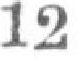12
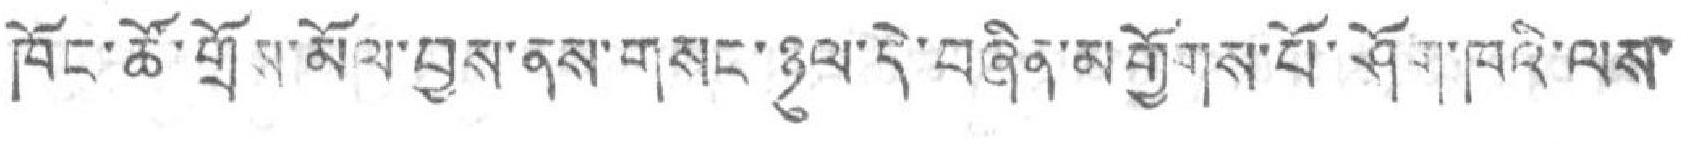ཁོང་ཚོ་གྲོས་མོལ་བྱས་ནས་གསང་ཉུལ་དེ་བཞིན་མགྱོགས་པོ་ཤོག་ཁའི་ལས་
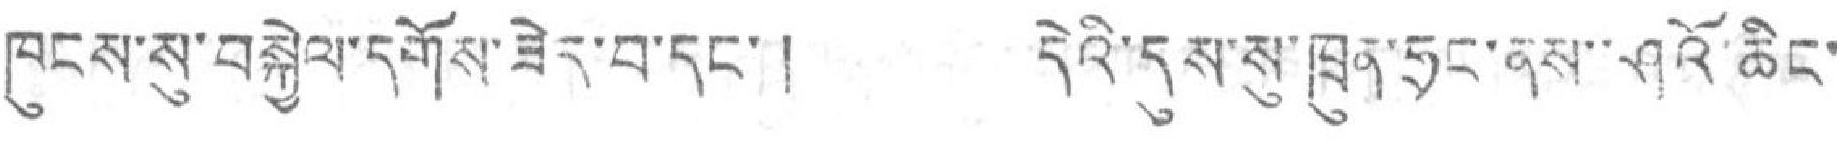ཁུངས་སུ་བསྐྱེལ་དགོས་ཟེར་བ་དང་། དེའི་དུས་སུ་ཁྲུན་ཧྲང་ནས་་ཤུའོ་ཆིང་
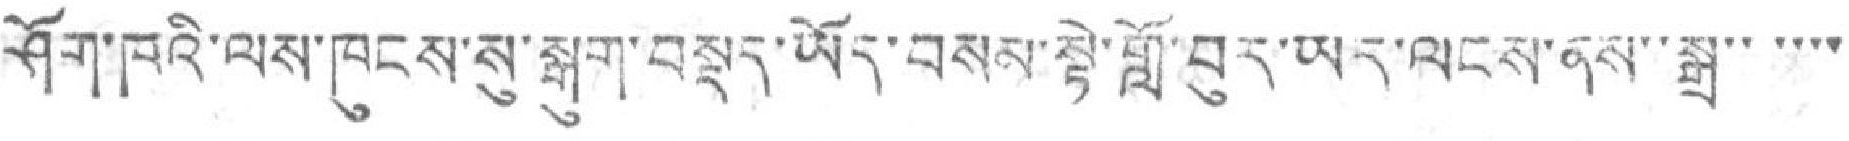ཤོག་ཁའི་ལས་ཁུངས་སུ་སྒུག་བསྡད་ཡོད་བསམ་སྟེ་གློ་བུར་ཡར་ལངས་ནས་སྒྲ་་་་་་
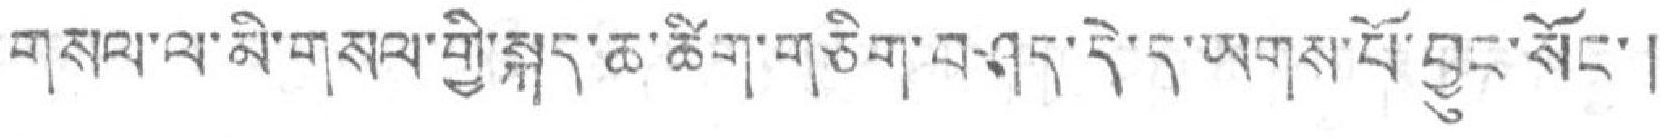གསལ་ལ་མི་གསལ་གྱི་སྐད་ཆ་ཚིག་གཅིག་བཤད་དི་ད་ཡགས་པོ་བྱུང་སོང་།
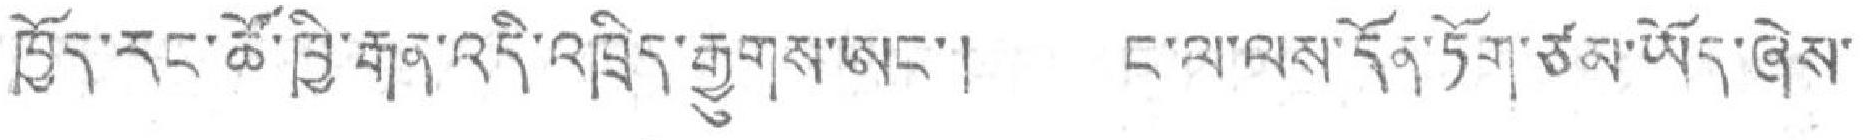ཁྱོད་རང་ཚོ་ཁྱི་རྒན་འདི་འཁྲིད་རྒྱུགས་ཨང་། ང་ལ་ལས་དོན་ཏོག་ཙམ་ཡོད་ཞེས་
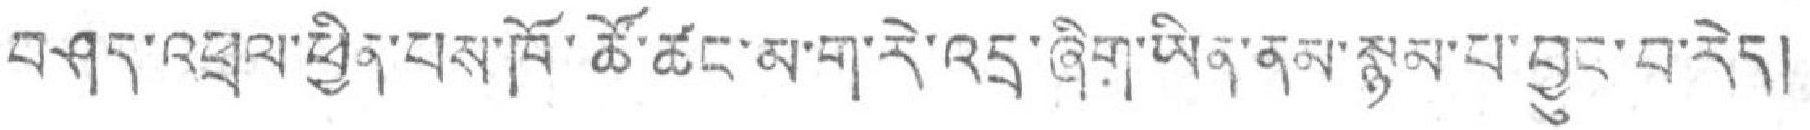བཤད་འཕྲལ་ཕྱིན་པས་ཁོ་ཚོ་ཚང་མ་ག་རེ་འདྲ་ཞིག་ཡིན་ནམ་སྙམ་པ་བྱུང་བ་རེད།
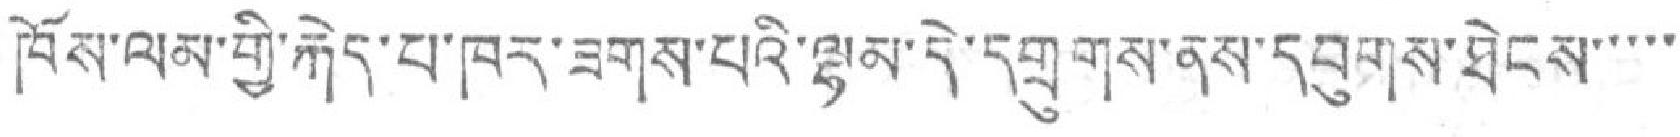ཁོས་ལམ་གྱི་རྐེད་པ་ཁར་ཟགས་པའི་ལྷམ་དེ་དགྲུགས་ནས་དབུགས་ཐེངས་་་་་
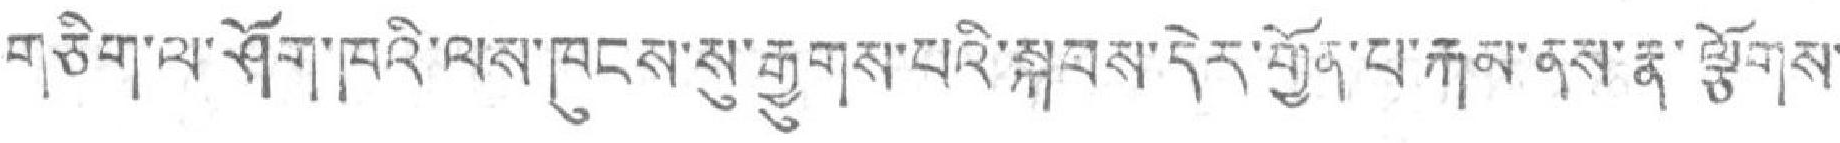གཅིག་ལ་ཤོག་ཁའི་ལས་ཁུངས་སུ་རྒྱུགས་པའི་སྐབས་དེར་གྱོན་པ་རྐམ་ནས་རྣ་ལྕོགས་
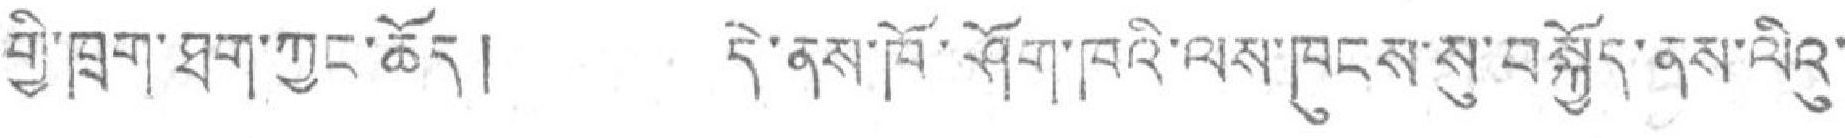གྱི་ཁྲག་ཐག་ཀྱང་ཆོད། དེ་ནས་ཁོ་ཤོག་ཁའི་ལས་ཁུངས་སུ་བསྐྱོད་ནས་ལིའུ་
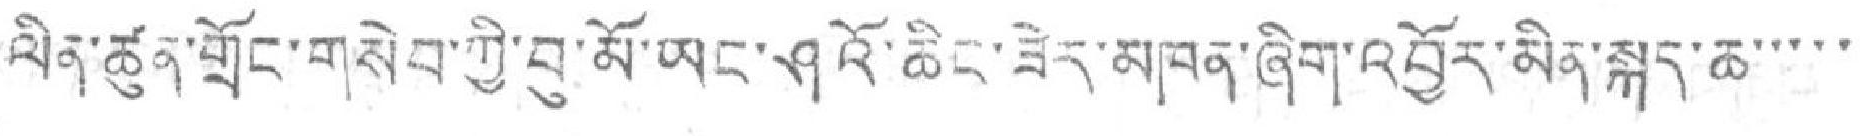ལིན་ཚུན་གྲོང་གསེབ་ཀྱི་བུ་མོ་ཡང་ཤའོ་ཆིང་ཟེར་མཁན་ཞིག་འབྱོར་མིན་སྐད་ཆ་་་་་
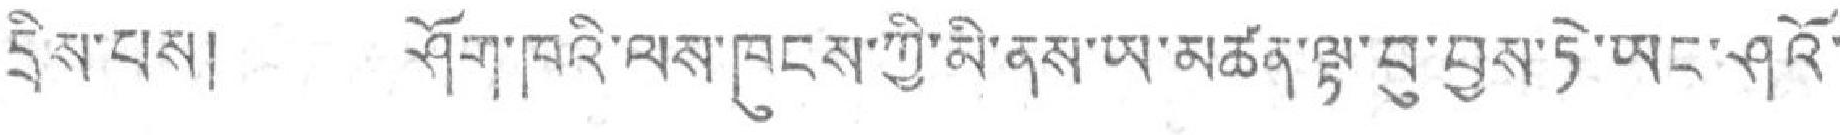དྲེས་པས། ཤོག་ཁའི་ལས་ཁུངས་ཀྱི་མི་ནས་ཡ་མཚན་ལྟ་བུ་བྱས་ཏེ་ཡང་ཤའོ་
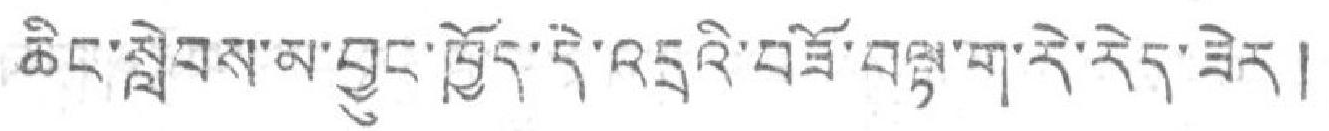ཆིང་སླེབས་མ་བྱུང་ཁྱོད་དེ་འདྲའི་བཟོ་བལྟ་ག་རེ་རེད་ཟེར།
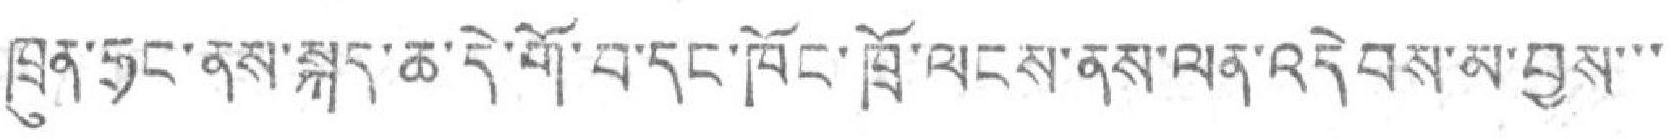ཁྲུན་ཧྲང་ནས་སྐད་ཆ་དེ་གོ་བ་དང་ཁོང་ཁྲོ་ལངས་ནས་ལན་འདེབས་མ་བྱས་་་
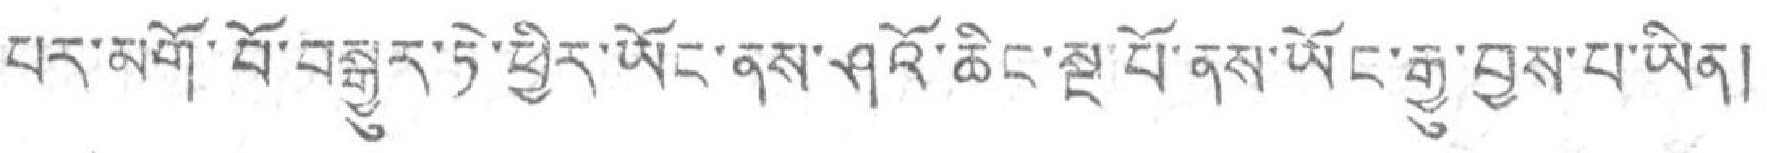པར་མགོ་བོ་བསྒྱུར་ཏེ་ཕྱིར་ཡོང་ནས་ཤའོ་ཆིང་སྔ་པོ་ནས་ཡོང་རྒྱུ་བྱས་པ་ཡིན།
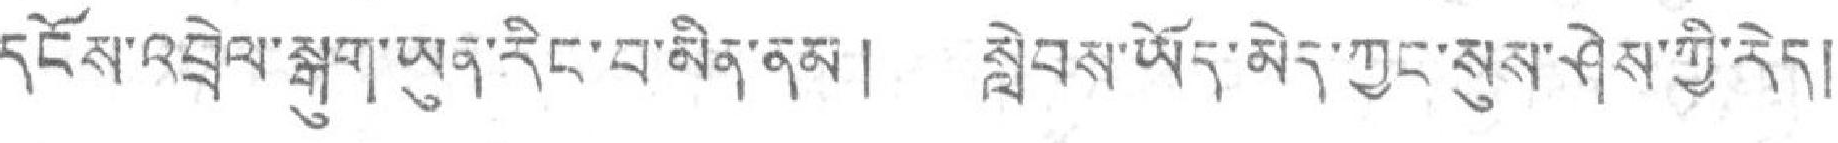དངོས་འབྲེལ་སྒུག་ཡུན་རིང་བ་མིན་ནམ། སླེབས་ཡོད་མེད་ཀྱང་སུས་ཤེས་ཀྱི་རེད།
